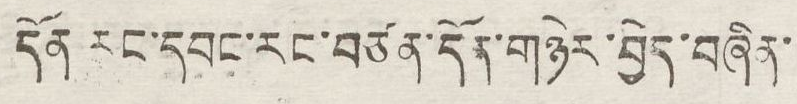དོན རང་དབང་རང་བཙན་དོན་གཉེར་བྱེད་བཞིན་
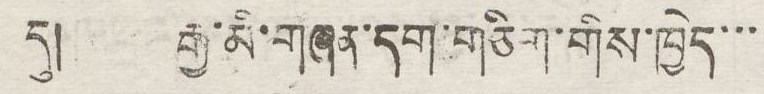དུ། རྒྱ་མི་གཞན་དག་གཅིག་གིས་ཁྱེད་་་
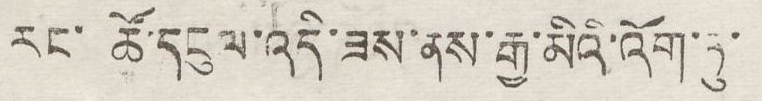རང་ཚོ་དངུལ་འདི་ཟས་ནས་རྒྱ་མིའི་འོག་ཏུ་
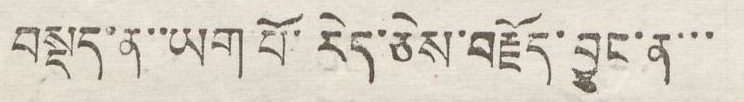བསྡད་ན་ཡག པོ་རེད་ཅེས་བརྗོད་བྱུང་ན་་་
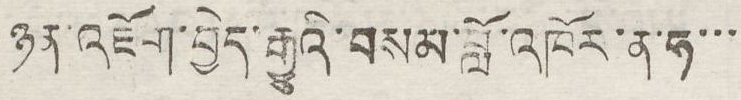ཉན་འཇོག་བྱེད་རྒྱུའི་བསམ་བློ་འཁོར་ན་ཧ་་་
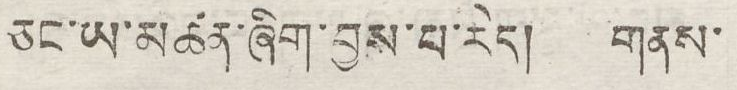ཅང་ཡ་མཚན་ཞིག་བྱས་པ་རེད། གནས་
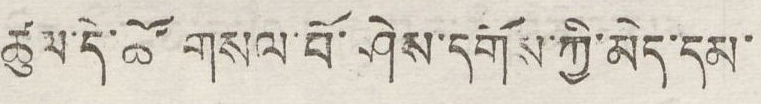ཚུལ་དེ་ཚོ་གསལ་པོ་ཤེས་དགོས་ཀྱི་མེད་དམ་
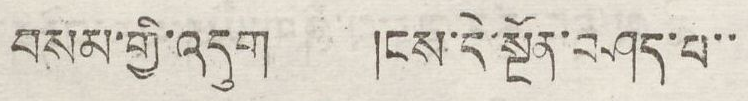བསམ་གྱི་འདུག །ངས་དེ་སྔོན་བཤད་པ་་
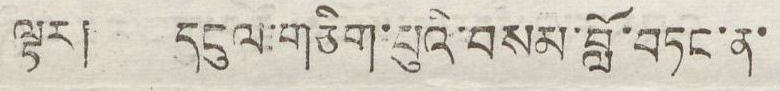ལྟར། དངུལ་གཅིག་པུའི་བསམ་བློ་བཏང་ན་
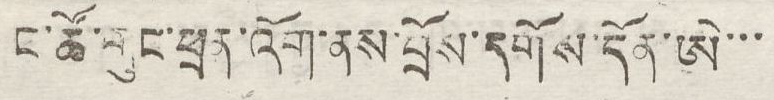ང་ཚོ་གུང་ཕྲན་འོག་ནས་བྲོས་དགོས་དོན་ཨེ་་་
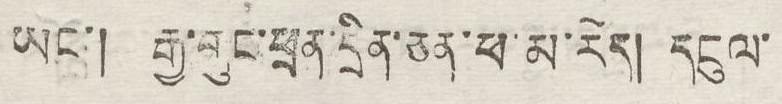ཡང་། རྒྱ་གུང་ཕྲན་དྲིན་ཅན་ཕ་མ་རེད། དངུལ་
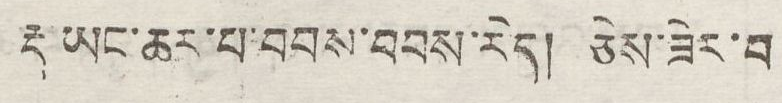རྡ ཡང་ཆར་པ་བབས་རེད།   ཅེས་ཟེར་བ
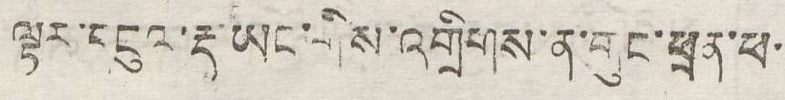ལྟར་དངུལ་རྡ་ཡང་གིས་འགྲིགས་ན་གུང་ཕྲན་ཕ་
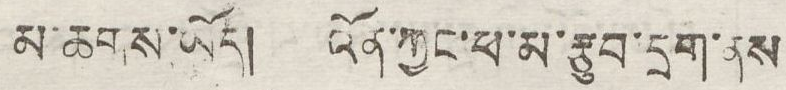མ་ཆགས་ཡོད། འོན་ཀྱང་ཕ་མ་རྩུབ་དྲག་ནས
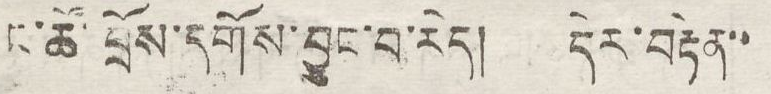ང་ཚོ་བྲོས་དགོས་བྱུང་བ་རེད། དེར་བརྟེན་་
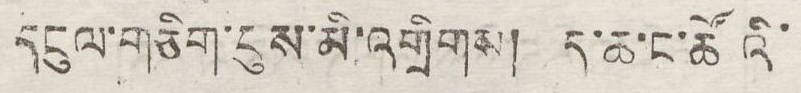དངུལ་གཅིག་བུས་མི་འགྲིགས། ད་ཆ་ང་ཚོའི་
